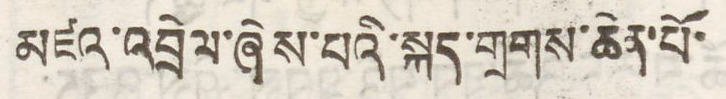མཛའ་འབྲེལ་ཞེས་པའི་སྐད་གྲགས་ཆེན་པོ་
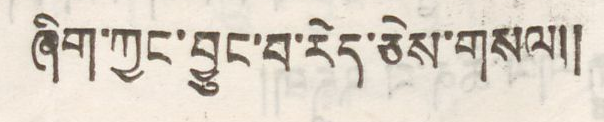ཞིག་ཀྱང་བྱུང་བ་རེད་ཅེས་གསལ།།
